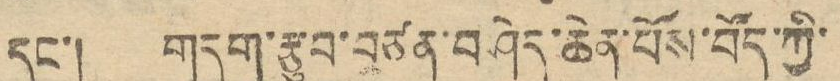དང་། གདུག་རྩུབ་བཙན་བཤེད་ཆེན་པོས་བོད་ཀྱི་
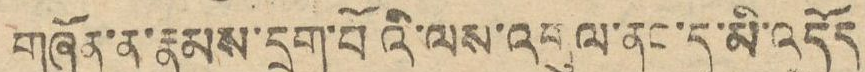གཞོན་ནུ་རྣམས་དྲག་པོའི་ལས་འགུལ་ནང་དུ་མི་འདོད
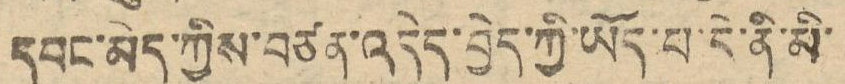དབང་མེད་ཀྱིས་བཙན་འདེད་བྱེད་ཀྱི་ཡོད་པ་དེ་ནི་མི
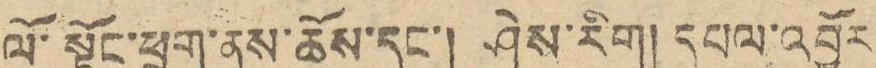ལོ་སྟོང་ཕྲག་ནས་ཆོས་དང་། ཤེས་རིག། དཔལ་འབྱོར
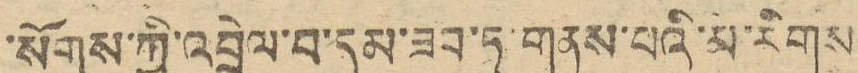་སོགས་ཀྱི་འབྲེལ་བ་དམ་ཟབ་ཏུ་གནས་པའི་མི་རིགས
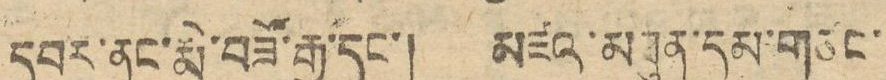དབར་ནང་མི་བཟོ་རྒྱུ་དང་། མཛའ་མཐུན་དམ་གཙང་
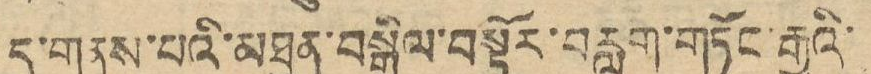དུ་གནས་པའི་མཐུན་བསྒྲིལ་བསྟོར་བརླག་གཏོར་རྒྱུའི་
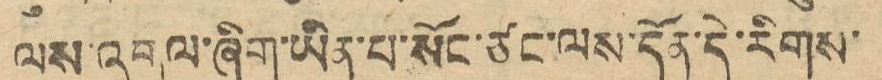ལས་འགུལ་ཞིག་ཡིན་པ་སོང་ཙང་ལས་དོན་དེ་རིགས་
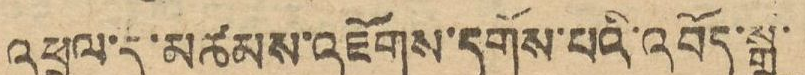འཕྲལ་དུ་མཚམས་འཇོགས་དགོས་པའི་འབོད་སྒྲ་
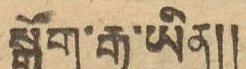སྒྲོག་རྒྱུ་ཡིན།།
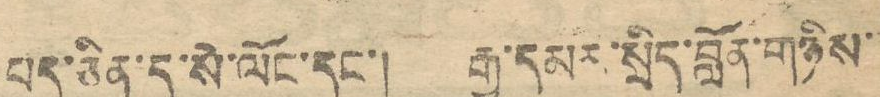པད་ཅིན་དུ་སེ་ལོང་དང་། རྒྱ་དམར་སྲིད་བློན་གཉིས་
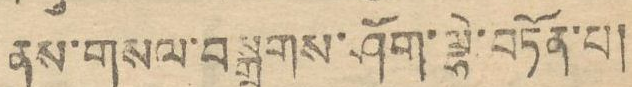ནས་གསལ་བསྒྲགས་ཤོག་ལྷེ་བཏོན་པ།
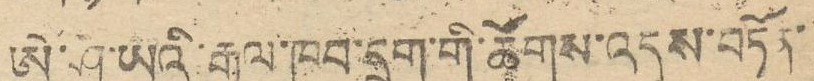ཨེ་ཤ་ཡའི་རྒྱལ་ཁབ་དྲུག་གི་ཚོགས་འདུས་བཏོན་
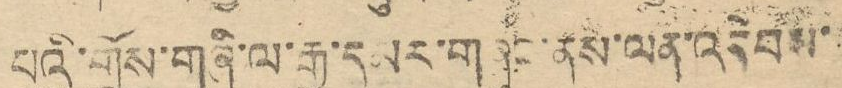པའི་གྲོས་གཞི་ལ་རྒྱ་དམར་གཞུང་ནས་ལན་འདེབས་
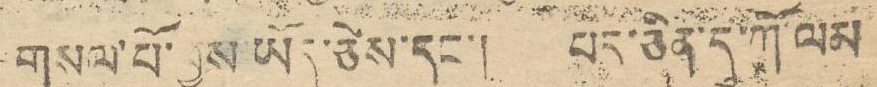གསལ་པོ་བྱས་ཡོད་ཅེས་དང་། པད་ཅིན་དུ་ཀོ་ལམ
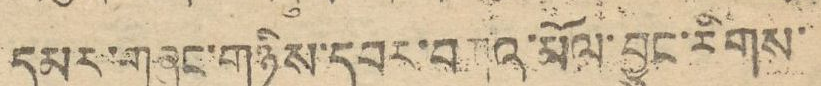དམར་གཞུང་གཉིས་དབར་བཀའ་མོལ་བྱུང་རིགས་
